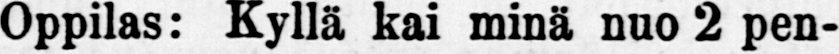Oppilas: Kyllä kai minä nuo 2 pen-
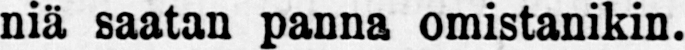niä saatan panna omistanikin.
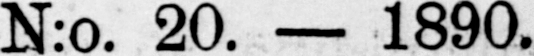N:o. 20. — 1890.
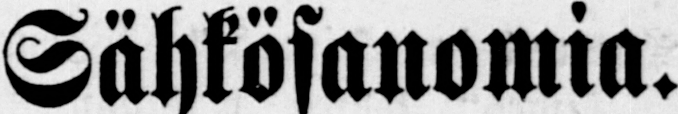Sähkösanomia.
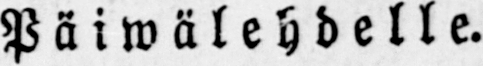Päiwälehdelle.
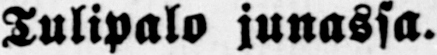Tulipalo junassa.
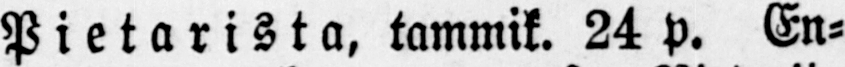Pietarista, tammik. 24 p. En-
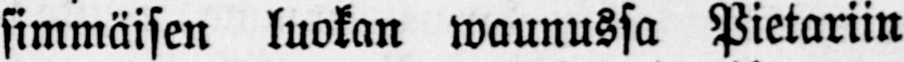simmäisen luokan waunussa Pietariin
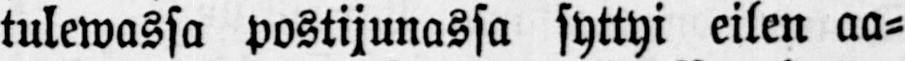tulewassa postijunassa syttyi eilen aa-
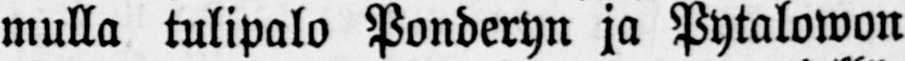mulla tulipalo Ponderyn ja Pytalowon
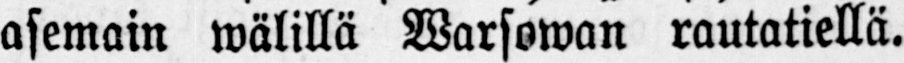asemain wälillä Warsowan rautatiellä.
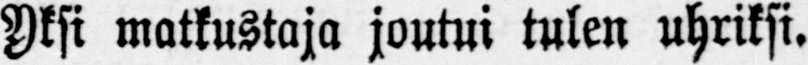Yksi matkustaja joutui tulen uhriksi.
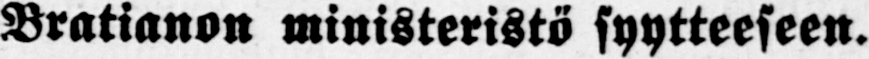Bratianon ministeristö syytteeseen.
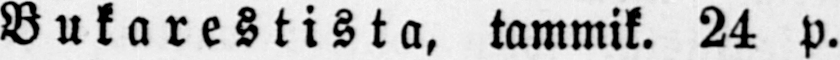Bukarestista, tammik. 24 p.
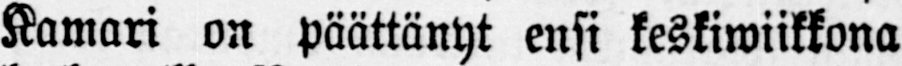Kamari on päättänyt ensi keskiwiikkona
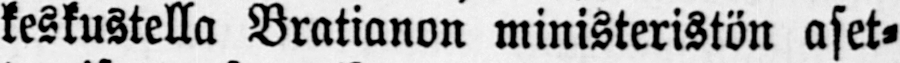keskustella Bratianon ministeristön aset-
